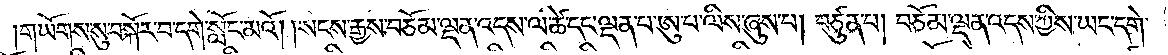།གཡོགས་སུ་བསྐོར་བ་དགེ་སློང་མའོ། །སངས་རྒྱས་བཅོམ་ལྡན་འདས་ལ་ཚེ་དང་ལྡན་པ་ཨུ་པ་ལིས་ཞུས་པ། བཙུན་པ། བཅོམ་ལྡན་འདས་ཀྱིས་ཡང་དགེ་
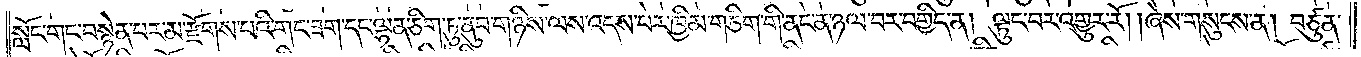སློང་གང་བསྙེན་པར་མ་རྫོགས་པའི་གང་ཟག་དང་ལྷན་ཅིག་ཏུ་ནུབ་གཉིས་ལས་འདས་པར་ཁྱིམ་གཅིག་གི་ནང་ན་ཉལ་བར་བགྱིད་ན། ལྟུང་བར་འགྱུར་རོ། །ཞེས་གསུངས་ན། བཙུན་
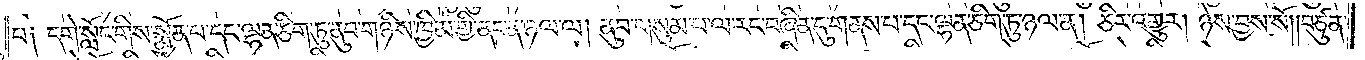པ༑ དགེ་སློང་གིས་སྨྱོན་པ་དང་ལྷན་ཅིག་ཏུ་ནུབ་གཉིས་ཁྱིམ་གྱི་ནང་ན་ཉལ་ལ། ནུབ་གསུམ་པ་ལ་རང་བཞིན་དུ་གནས་པ་དང་ལྷན་ཅིག་ཏུ་ཉལ་ན། ཅིར་འགྱུར། ཉེས་བྱས་སོ། །བཙུན་
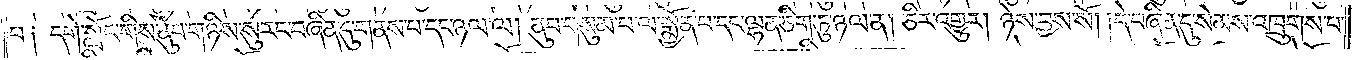པ༑ དགེ་སློང་གིས་ནུབ་གཉིས་སུ་རང་བཞིན་དུ་གནས་པ་དང་ཉལ་ལ། ནུབ་གསུམ་པ་ལ་སྨྱོན་པ་དང་ལྷན་ཅིག་ཏུ་ཉལ་ན། ཅིར་འགྱུར། ཉེས་བྱས་སོ། །དེ་བཞིན་དུ་སེམས་འཁྲུགས་པ་
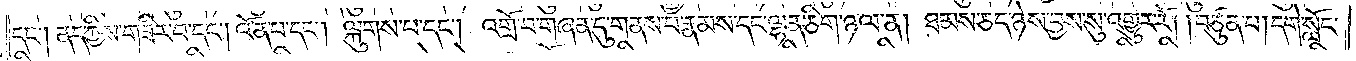དང༌། ནད་ཀྱིས་གཟིར་བ་དང༌། འོན་པ་དང༌། ལྐུགས་པ་དང༌། འགྲོ་བ་གཞན་དུ་གནས་པ་རྣམས་དང་ལྷན་ཅིག་ཉལ་ན། ཐམས་ཅད་ཉེས་བྱས་སུ་འགྱུར་རོ། །བཙུན་པ། དགེ་སློང་
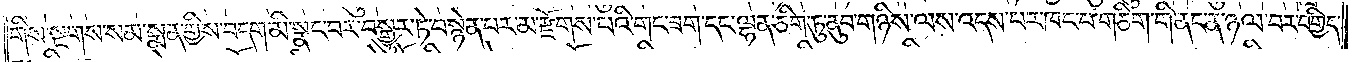གིས་སྔགས་སམ་སྨན་གྱིས་བདག་མི་སྣང་བར་བསྒྱུར་ཏེ་བསྙེན་པར་མ་རྫོགས་པའི་གང་ཟག་དང་ལྷན་ཅིག་ཏུ་ནུབ་གཉིས་ལས་འདས་པར་ཁང་པ་གཅིག་གི་ནང་ན་ཉལ་བར་བགྱིད་
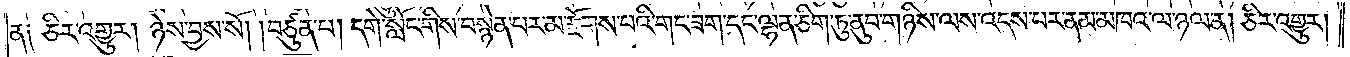ན༑ ཅིར་འགྱུར། ཉེས་བྱས་སོ། །བཙུན་པ། དགེ་སློང་གིས་བསྙེན་པར་མ་རྫོགས་པའི་གང་ཟག་དང་ལྷན་ཅིག་ཏུ་ནུབ་གཉིས་ལས་འདས་པར་ནམ་མཁའ་ལ་ཉལ་ན། ཅིར་འགྱུར།
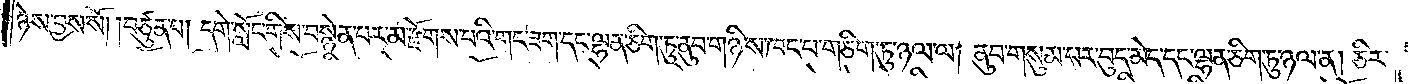ཉེས་བྱས་སོ། །བཙུན་པ། དགེ་སློང་གིས་བསྙེན་པར་མ་རྫོགས་པའི་གང་ཟག་དང་ལྷན་ཅིག་ཏུ་ནུབ་གཉིས་ཁང་པ་གཅིག་ཏུ་ཉལ་ལ། ནུབ་གསུམ་པར་བུད་མེད་དང་ལྷན་ཅིག་ཏུ་ཉལ་ན། ཅིར་
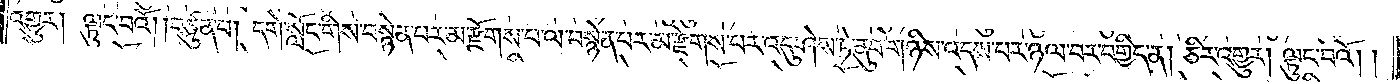འགྱུར། ལྟུང་བའོ། །བཙུན་པ། དགེ་སློང་གིས་བསྙེན་པར་མ་རྫོགས་པ་ལ་བསྙེན་པར་མ་རྫོགས་པར་འདུ་ཤེས་ཏེ་ནུབ་གཉིས་འདས་པར་ཉལ་བར་བགྱིད་ན། ཅིར་འགྱུར། ལྟུང་བའོ། །
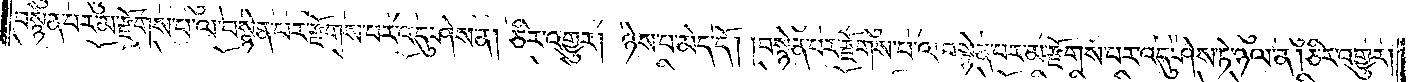བསྙེན་པར་མ་རྫོགས་པ་ལ་བསྙེན་པར་རྫོགས་པར་འདུ་ཤེས་ན། ཅིར་འགྱུར། ཉེས་པ་མེད་དོ། །བསྙེན་པར་རྫོགས་པ་ལ་བསྙེན་པར་མ་རྫོགས་པར་འདུ་ཤེས་ཏེ་ཉལ་ན། ཅིར་འགྱུར།
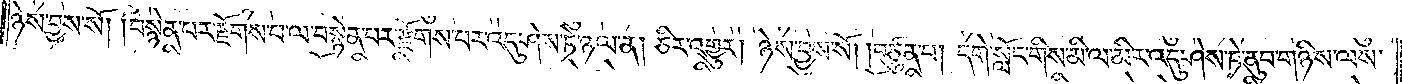ཉེས་བྱས་སོ། །བསྙེན་པར་རྫོགས་པ་ལ་བསྙེན་པར་རྫོགས་པར་འདུ་ཤེས་ཏེ་ཉལ་ན། ཅིར་འགྱུར། ཉེས་བྱས་སོ། །བཙུན་པ། དགེ་སློང་གིས་མི་ལ་མིར་འདུ་ཤེས་ཏེ་ནུབ་གཉིས་ལས་
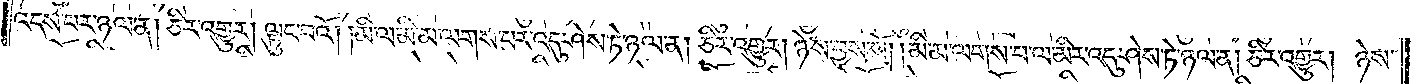འདས་པར་ཉལ་ན། ཅིར་འགྱུར། ལྟུང་བའོ། །མི་ལ་མི་མ་ལགས་པར་འདུ་ཤེས་ཏེ་ཉལ་ན། ཅིར་འགྱུར། ཉེས་བྱས་སོ། །མི་མ་ལགས་པ་ལ་མིར་འདུ་ཤེས་ཏེ་ཉལ་ན། ཅིར་འགྱུར། ཉེས་
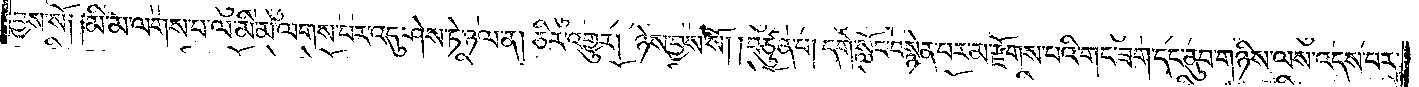བྱས་སོ། །མི་མ་ལགས་པ་ལ་མི་མ་ལགས་པར་འདུ་ཤེས་ཏེ་ཉལ་ན། ཅིར་འགྱུར། ཉེས་བྱས་སོ། །བཙུན་པ། དགེ་སློང་བསྙེན་པར་མ་རྫོགས་པའི་གང་ཟག་དང་ནུབ་གཉིས་ལས་འདས་པར་
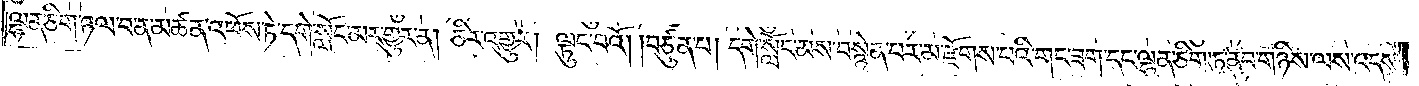ལྷན་ཅིག་ཉལ་བ་ན་མཚན་འཕོས་ཏེ་དགེ་སློང་མར་གྱུར་ན། ཅིར་འགྱུར། ལྟུང་བའོ། །བཙུན་པ། དགེ་སློང་མས་བསྙེན་པར་མ་རྫོགས་པའི་གང་ཟག་དང་ལྷན་ཅིག་ཏུ་ནུབ་གཉིས་ལས་འདས་
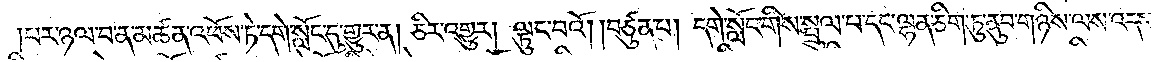།པར་ཉལ་བ་ན་མཚན་འཕོས་ཏེ་དགེ་སློང་དུ་གྱུར་ན། ཅིར་འགྱུར། ལྟུང་བའོ། །བཙུན་པ། དགེ་སློང་གིས་སྤྲུལ་པ་དང་ལྷན་ཅིག་ཏུ་ནུབ་གཉིས་ལས་འདས་
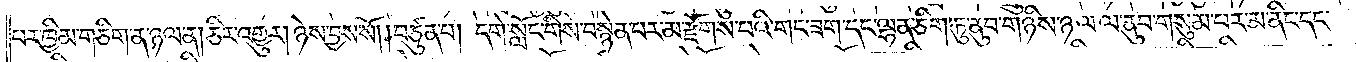པར་ཁྱིམ་གཅིག་ན་ཉལ་ན། ཅིར་འགྱུར། ཉེས་བྱས་སོ། །བཙུན་པ། དགེ་སློང་གིས་བསྙེན་པར་མ་རྫོགས་པའི་གང་ཟག་དང་ལྷན་ཅིག་ཏུ་ནུབ་གཉིས་ཉལ་ལ་ནུབ་གསུམ་པར་མ་ནིང་དང་
